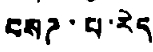བསཌ་པ་རེད།
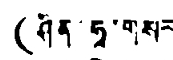(ཤིན་ཧྭ་གསར
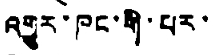འགྱུར་ཁང་གི་པར་
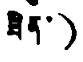ཟིན་)
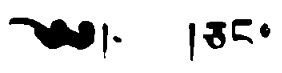༄༅། །ཅང་
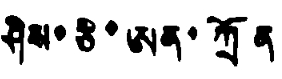ཤིས་ཅི་ཨན་ཀྲོན
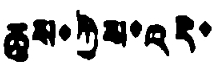ཆུས་ཀྱིས་འདི་
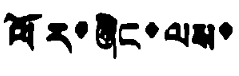ལོར་ཞིང་ལས་
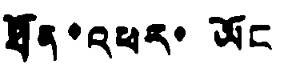ཐོན་འཕར་ཡོང
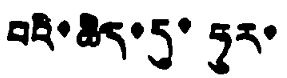བའི་ཆེད་དུ་ཧུར་
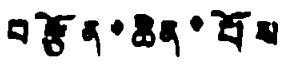བརྩོན་ཆེན་པོས
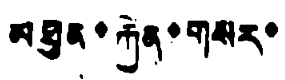མཐུན་རྐྱེན་གསར་
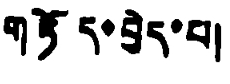གཏོད་བྱེད་པ།
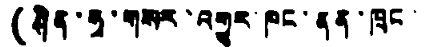(ཤིན་ཧྭ་གསར་འགྱུར་ཁང་ནན་ཁྲང་
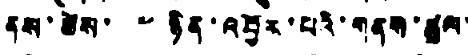ནས་ཚེས་ ༧ ཉིན་འབྱོར་པའི་གནས་ཚུལ་
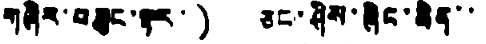གཞིར་བཟུང་ལྟར་) ཅང་ཤིས་ཞིང་ཆེན་་
